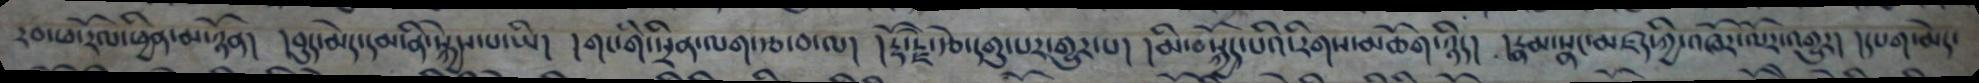རབ་ཕ་རོལ་ཕྱིན་མ་ཉོན། །བུད་མེད་དམ་ནི་སྐྱེས་པ་ཡི། །གང་གི་སྲིན་ལག་རྩ་བ་ལ། །རྡོ་རྗེ་རྩེ་དགུ་པར་གྱུར་པ། །མི་བསྐྱོད་པའི་རིགས་མཆོག་ཉིད། །རྣམ་སྣང་མཛད་ཀྱི་འཁོར་ལོར་འགྱུར། །དཔག་མེད་
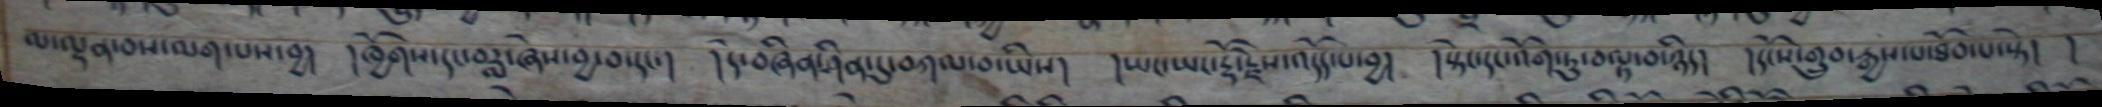ལ་ལྡན་བས་ལག་པས་བྱ། །ཁྱོགས་དང་བརླ་ཞེས་བྱ་བ་དང་། །དེ་བཞིན་ཤིན་དུ་བཀལ་བ་ཡིས། །ཡང་ཡང་རྡོ་རྗེས་འདོད་པ་བྱ། །སྟེང་དང་འོག་ཏུ་བལྟ་བ་ཉིད། །དངོས་གྲུབ་རྒྱས་པ་ཐོབ་པ་སྟེ། །
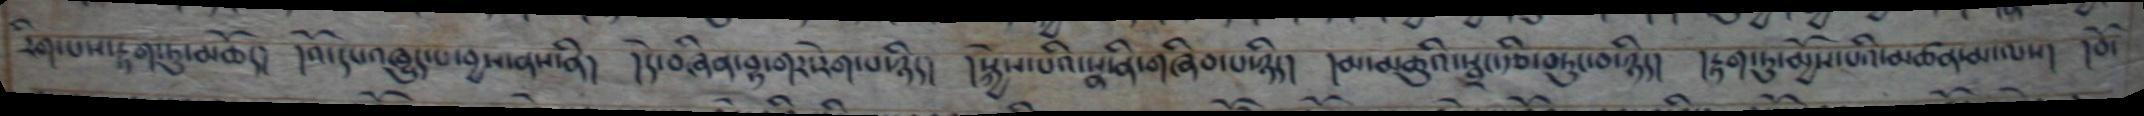རིག་པས་རྟག་ཏུ་མཆོད། །འོ་དང་འཁྱུད་པ་བྱས་ནས་ནི། །དེ་བཞིན་བྷ་གར་རེག་པ་ཉིད། །སྐྱེས་པའི་སྣ་ནི་གཞིབ་པ་ཉིད། །མ་མཆུའི་སྦྲང་རྩི་བཏུང་བ་ཉིད། །རྟག་ཏུ་མྱོས་པའི་མཚན་མ་ལས། །བོ་
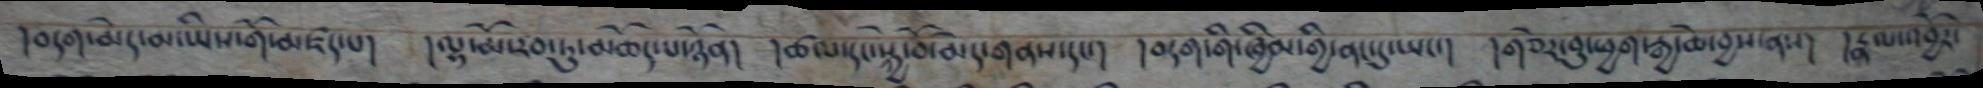།བདག་མེད་མ་ཡིས་གོ་མཛད་པ། །ལྷ་མོ་རབ་ཏུ་མཆོད་པ་ཉོན། །ཚལ་དང་སྐྱེ་བོ་མེད་གནས་དང་། །བདག་གི་ཁྱིམ་གྱི་ནང་དུ་ཡངཡ་། །གཅེར་བུ་ཕྱག་རྒྱ་ཆེ་བྱས་ནས། །རྣལ་འབྱོར་
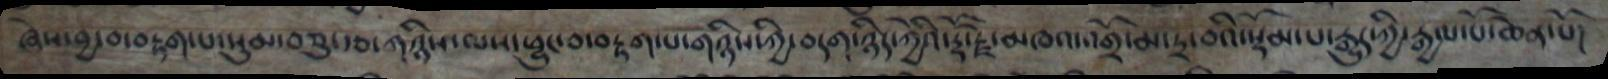ཞེས་བྱ་བ་བརྟག་པ་སུམ་བཅུ་རྩ་གཉིས་ལས་ཕྱུང་བ་བརྟག་པ་གཉིས་ཀྱི་བདག་ཉིད་ཀྱེའི་རྡོ་རྗེ་མཁའ་འགྲོ་མ་དྲ་བའི་སྡོམ་པ་རྒྱུད་ཀྱི་རྒྱལ་པོ་ཆེན་པོ།
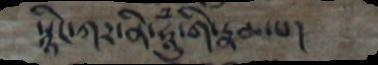སྙིང་ཀར་ཧཱུཾ་གི་རྣམ་པ།
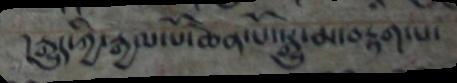།རྒྱུད་ཀྱི་རྒྱལ་པོ་ཆེན་པོ་སྒྱུ་མ་བརྟག་པ་
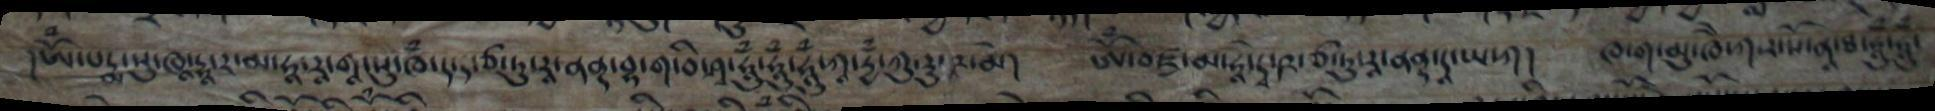།ཨོཾ་པདྨ་སུ་ཁཱ་དྷཱ་ར་མ་ཧཱ་རཱ་གཱ་སུ་ཁཾ་ད་ད་ཙ་ཏུ་རཱ་ནནྡ་བྷ་ག་བི་ཤཱ་ཧཱུཾ་ཧཱུྃ་ཧཱུྃ་ཀཱ་རྱྃ་ཀུ་རུ་ཥ་མེ། ཨོཾ་བཛྲ་མ་ཧཱ་དྭེ་ཥ་ཙ་ཏུ་རཱ་ནནྡ་དཱ་ཡ་ཀ། ཁ་ག་མུ་ཁཻ་ཀ་ར་སོ་ནཱ་ཐ་ཧཱུཾ་ཧཱུཾ་
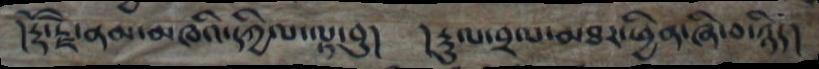།རྡོ་རྗེ་ནམ་མཁའི་དཀྱིལ་ལྟ་བུ། །རྡུལ་བྲལ་མཐར་ཕྱིན་ཞི་བ་ཉིད།
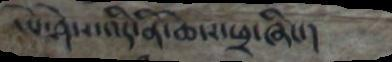དཔེ་ཤེས་འདི་ནི་ཆེས་ཕྲ་ཞིང་།
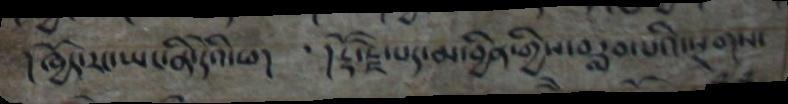།ཁྱོད་རང་ཡང་ནི་དེའི་ཕ། །རྡོ་རྗེ་པདྨ་བྱིན་གྱིས་བརླབ་པའི་སྔགས་
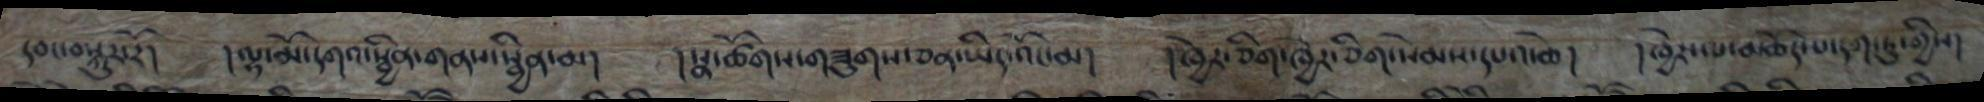དབང་བསྐུར་རོ། །ལྷ་མོ་དགའ་སྦྱིན་གནས་སྦྱིན་མ། །སྣ་ཚོགས་གཟུགས་ཅན་ཡིད་འོང་མ། །ཁྱེར་ཅིག་ཁྱེར་ཅིག་སེམས་དཔའ་ཆེ། །ཁྱེར་ལ་མཆོད་པ་དག་ཏུ་གྱིས།
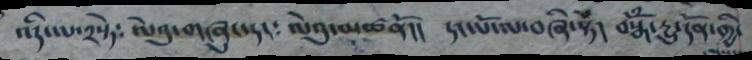འདི་ལ་༢སྟེ༴ ལེའུ་གཞུང་དང་༴ ལེའུ་མཚནོ།། དང་པོ་ལ་བཞི་སྟེ། བསྒོྃ་རྔུ་དོན་གྱི་
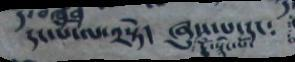དང་པོ་ལ་༢སྟེ།  ཞུས་པ་དང༴
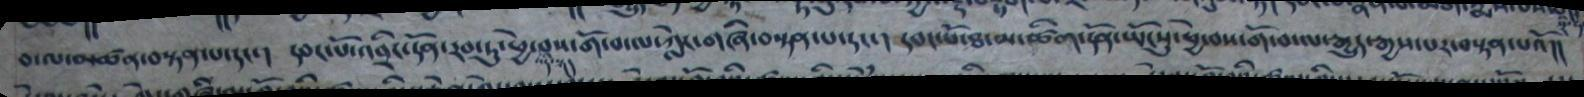བ་ལ་མཚན་བསྟན་པ་དང་།  དབང་པོ་འབྲིང་དོན་རབ་ཏུ་ཕྱེ་བས་གོ་བ་ལ་གླེང་གཞི་བསྟན་པ་དང་།  དབང་པོ་ཐ་མ་ཚིག་དོན་ཡོངསུ་ཕྱེ་བས་གོ་བ་ལ་རྒྱུད་རྒྱས་པར་བསྟན་པའོ།།
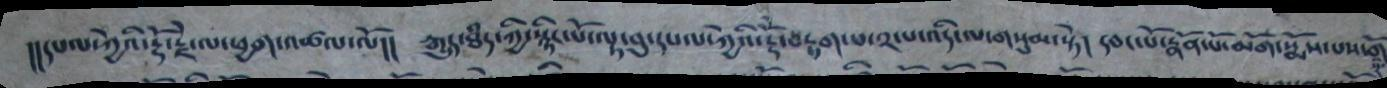།།དཔལ་ཀྱེའི་རྡོ་རྗེ་ལ་ཕྱག་འཚལ་ལོ།། རྒྱུད་ཐཾད་ཀྱི་སྙིང་པོ་ལྟ་བུ་དཔལ་ཀྱེའི་རྡོེ་བརྟག་པ་༢་པ་འདི་ལ་གསུམ་སྟེ། དབང་པོ་རྣོན་པོ་མགོ་སྨོས་པས་གོ
